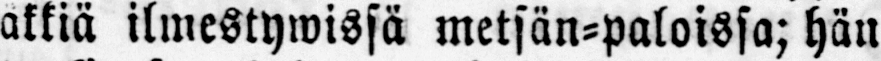äkkiä ilmestywissä metsän-paloissa; hän
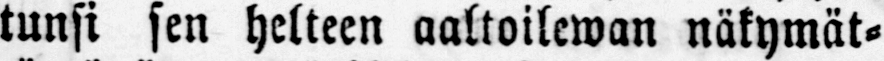tunsi sen helteen aaltoilewan näkymät-
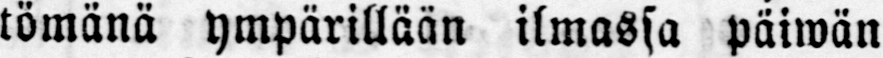tömänä ympärillään ilmassa päiwän
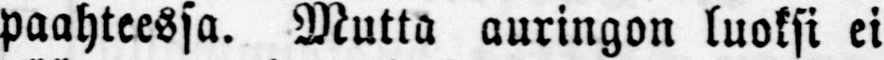paahteessa. Mutta auringon luoksi ei
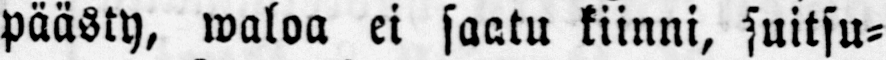päästy, waloa ei saatu kiinni, suitsu-
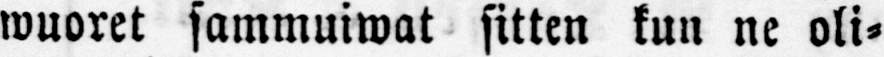wuoret sammuiwat sitten kun ne oli-
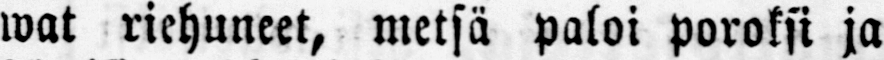wat riehuneet, metsä paloi poroksi ja
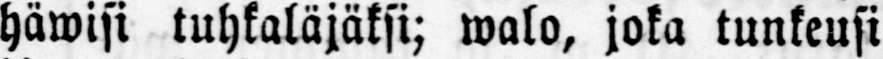häwisi tuhkaläjäksi; walo, joka tunkeusi
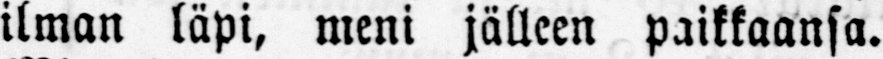ilman läpi, meni jälleen paikkaansa.
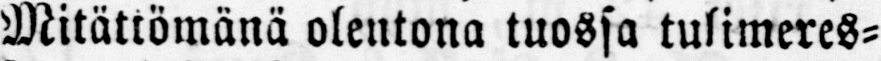Mitättömänä olentona tuossa tulimeres-
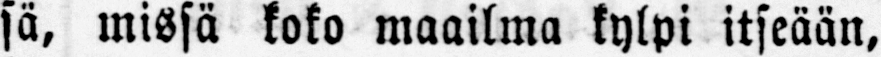sä, missä koko maailma kylpi itseään,
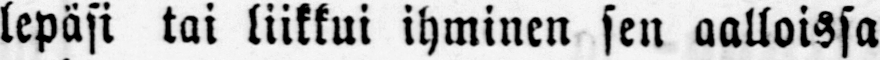lepäsi tai liikkui ihminen sen aalloissa
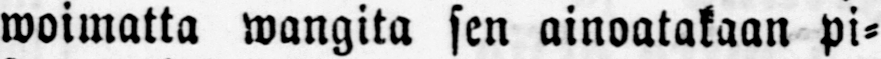woimatta wangita sen ainoatakaan pi-
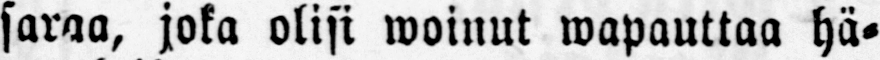saraa, joka olisi woinut wapauttaa hä-
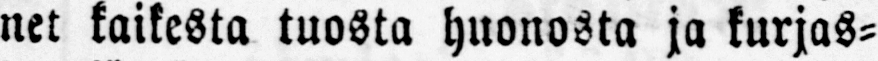net kaikesta tuosta huonosta ja kurjas-
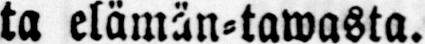ta elämän-tawasta.
